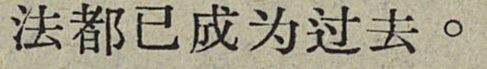法都已成为过去。
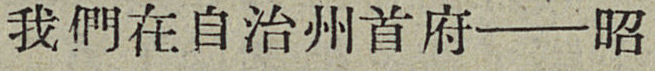我們在自治州首府——昭
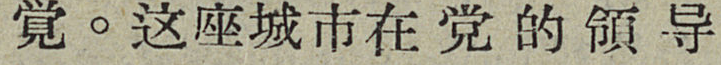覚。着座城市在党的領导
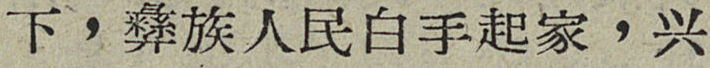下，彝族人民白手起家，兴
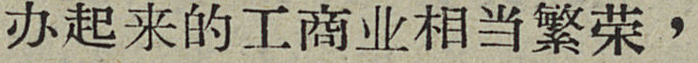办起来的工商业相当繁荣，
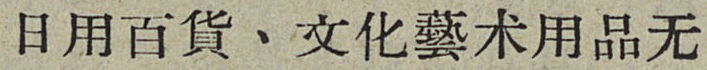日用百貨、文化藝术用品无
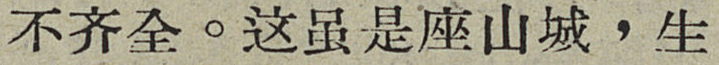不齐全。这虽是座山城，生
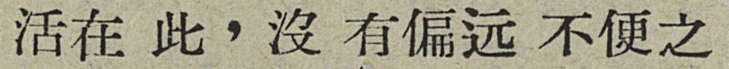活在此，沒有偏远不便之
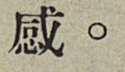感。
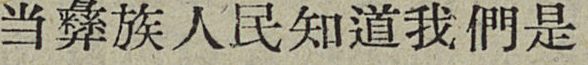当彝族人民知道我們是
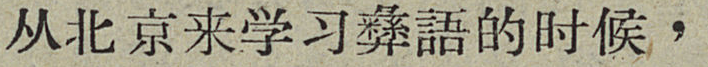从北京来学习彝語的时候，
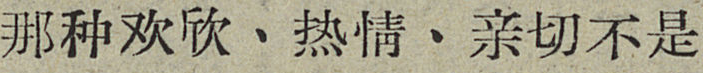那种欢欣、热情、亲切不是
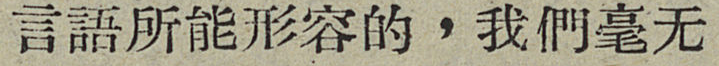言語所能形容的，我們毫无
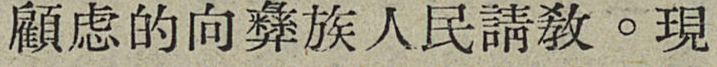顧虑的向彝族人民請敎。現
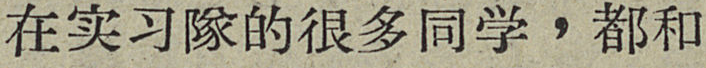在实习隊的很多同学，都和
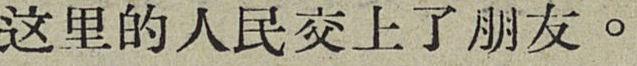这里的人民交上了朋友。
